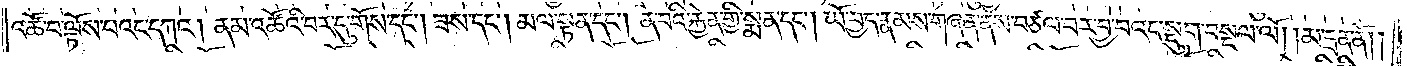འཚོ་བ་ལྟོས་པའང་དཀའ། ནམ་འཚོའི་བར་དུ་གོས་དང༌། ཟས་དང༌། མལ་སྟན་དང༌། ན་བའི་རྐྱེན་གྱི་སྨན་དང༌། ཡོ་བྱད་རྣམས་གཞན་ནས་བཙལ་བར་བྱ་བའང་སྡུག་བསྔལ་ལོ། །མ་དྲན་ནོ། །
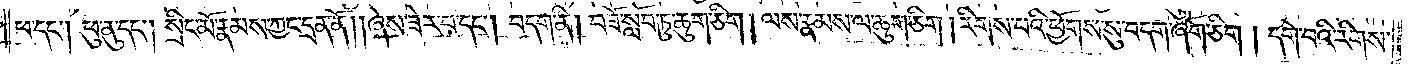ཕ་དང༌། ཕུ་ནུ་དང༌། སྲིང་མོ་རྣམས་ཀྱང་དྲན་ནོ། །ཞེས་ཟེར་བ་དང༌། བདག་ནི། བཟོ་སློབ་ཏུ་ཆུག་ཅིག །ལས་རྣམས་ལ་ཆུག་ཅིག །རིགས་པའི་ཕྱོགས་སུ་བདག་ཞོག་ཅིག། དགེ་བའི་རིགས་
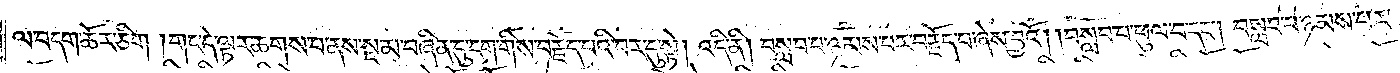ལ་བདག་ཆོར་ཅིག །གང་དེ་ལྟར་ཆགས་པ་ནས་སྔ་མ་བཞིན་དུ་ངག་གིས་བརྗོད་པའི་བར་དུ་སྟེ། འདི་ནི། བསླབ་པ་ཉམས་པར་བརྗོད་པ་ཞེས་བྱའོ། །བསླབ་པ་ཕུལ་བ་དང༌། བསླབ་པ་ཉམས་པར་
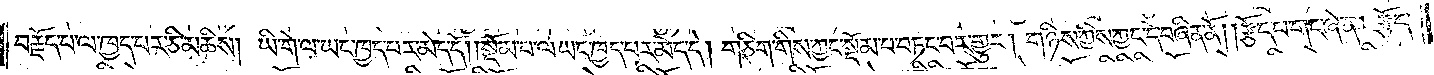བརྗོད་པ་ལ་ཁྱད་པར་ཅི་མཆིས། ཡི་གེ་ལ་ཡང་ཁྱད་པར་མེད་དོ། །སྡོམ་པ་ལ་ཡང་ཁྱད་པར་མེད་དེ། གཅིག་གིས་ཀྱང་སྡོམ་པ་བཏང་བར་གྱུར། གཉིས་ཀྱིས་ཀྱང་དེ་བཞིན་ནོ། །རྩོད་པ་གང་ཞེ་ན། རྩོད་
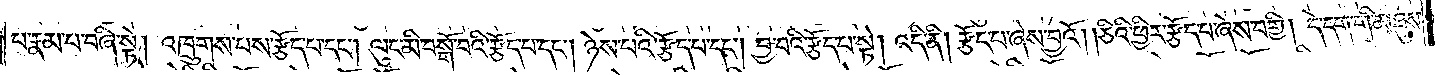པ་རྣམ་པ་བཞི་སྟེ། འཁྲུགས་པས་རྩོད་པ་དང༌། ལུང་མི་བསྒོ་བའི་རྩོད་པ་དང༌། ཉེས་པའི་རྩོད་པ་དང༌། བྱ་བའི་རྩོད་པ་སྟེ། འདི་ནི། རྩོད་པ་ཞེས་བྱའོ། །ཅིའི་ཕྱིར་རྩོད་པ་ཞེས་བགྱི། དེ་དག་གི་མཐུས་
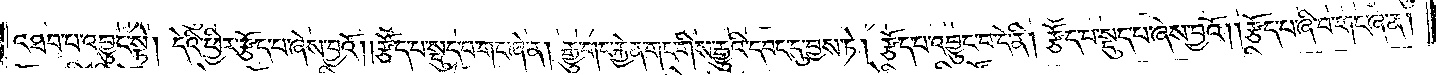འཐབ་པ་འབྱུང་སྟེ། དེའི་ཕྱིར་རྩོད་པ་ཞེས་བྱའོ། །རྩོད་པ་སྡུད་པ་གང་ཞེ་ན། རྒྱུ་གང་རྐྱེན་གང་གིས་རྒྱུའི་དབང་དུ་བྱས་ཏེ། རྩོད་པ་འབྱུང་བ་དེ་ནི། རྩོད་པ་སྡུད་པ་ཞེས་བྱའོ། །རྩོད་པ་ཞི་བ་གང་ཞེ་ན།
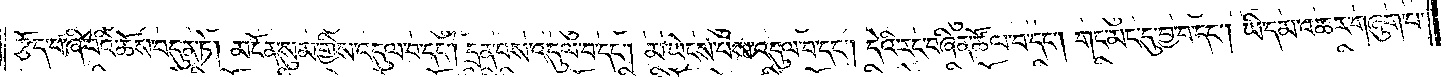རྩོད་པ་ཞི་བའི་ཆོས་བདུན་ཏེ། མངོན་སུམ་གྱིས་འདུལ་བ་དང༌། དྲན་པས་འདུལ་བ་དང༌། མ་ཡེངས་པས་འདུལ་བ་དང༌། དེའི་རང་བཞིན་ཚོལ་བ་དང༌། གང་མང་དུ་བྱ་བ་དང༌། ཡི་དམ་འཆར་གཞུག་པ་
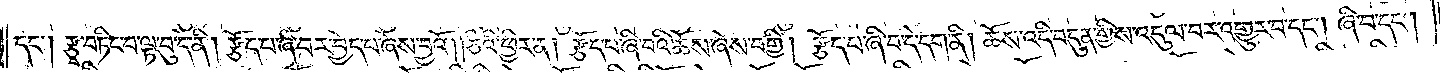དང༌། རྩྭ་བཏིང་བ་ལྟ་བུ་དེ་ནི། རྩོད་པ་ཞི་བར་བྱེད་པ་ཞེས་བྱའོ། །ཅིའི་ཕྱིར་ན། རྩོད་པ་ཞི་བའི་ཆོས་ཞེས་བགྱི། རྩོད་པ་ཞི་བ་དེ་དག་ནི། ཆོས་འདི་བདུན་གྱིས་འདུལ་བར་འགྱུར་བ་དང༌། ཞི་བ་དང༌།
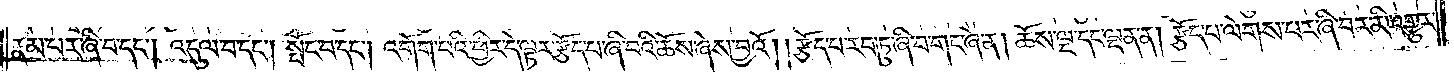རྣམ་པར་ཞི་བ་དང༌། འདུལ་བ་དང༌། སྤོང་བ་དང༌། འགོག་པའི་ཕྱིར་དེ་ལྟར་རྩོད་པ་ཞི་བའི་ཆོས་ཞེས་བྱའོ། །རྩོད་པ་རབ་ཏུ་ཞི་བ་གང་ཞེ་ན། ཆོས་ལྔ་དང་ལྡན་ན། རྩོད་པ་ལེགས་པར་ཞི་བར་མི་འགྱུར་
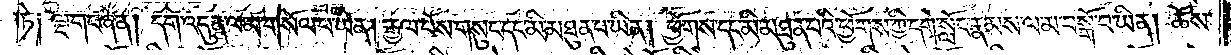ཏེ༑ ལྔ་གང་ཞེ་ན། དགེ་འདུན་ལ་མ་གསོལ་པ་ཡིན། རྒྱལ་པོས་གསུང་དང་མི་མཐུན་པ་ཡིན། ཕྱོགས་དང་མི་མཐུན་པའི་ཕྱོགས་ཀྱི་དགེ་སློང་རྣམས་ལ་མ་བསྒོ་བ་ཡིན། ཆོས་
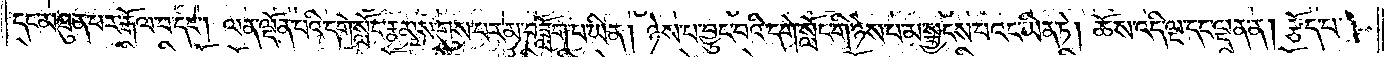དང་མཐུན་པར་རྒོལ་བ་དང༌། ལན་ལྡོན་པའི་དགེ་སློང་རྣམས་གུས་པར་མ་བཟློག་པ་ཡིན། ཉེས་པ་བྱུང་བའི་དགེ་སློང་གི་ཉེས་པ་མ་སྦྱངས་པའང་ཡིན་ཏེ། ཆོས་འདི་ལྔ་དང་ལྡན་ན། རྩོད་པ་
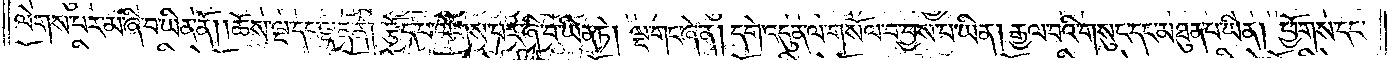ལེགས་པར་མ་ཞི་བ་ཡིན་ནོ། །ཆོས་ལྔ་དང་ལྡན་ན། རྩོད་པ་ལེགས་པར་ཞི་བ་ཡིན་ཏེ། ལྔ་གང་ཞེ་ན། དགེ་འདུན་ལ་གསོལ་བ་བྱས་པ་ཡིན། རྒྱལ་བའི་གསུང་དང་མཐུན་པ་ཡིན། ཕྱོགས་དང་
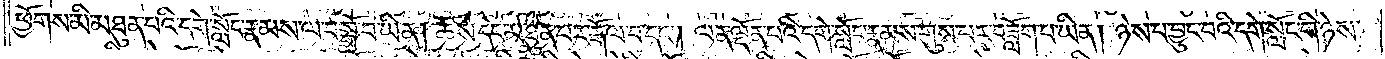ཕྱོགས་མི་མཐུན་པའི་དགེ་སློང་རྣམས་ལ་བསྒོ་བ་ཡིན། ཆོས་དང་མཐུན་པར་རྒོལ་བ་དང༌། ལན་ལྡོན་པའི་དགེ་སློང་རྣམས་གུས་པར་བཟློག་པ་ཡིན། ཉེས་པ་བྱུང་བའི་དགེ་སློང་གི་ཉེས་
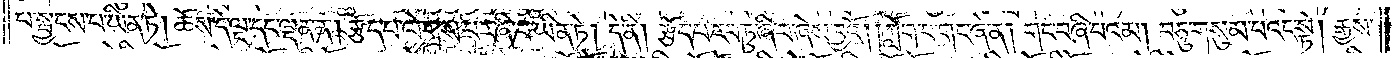པ་སྦྱངས་པ་ཡིན་ཏེ། ཆོས་དེ་ལྔ་དང་ལྡན་ན། རྩོད་པ་ལེགས་པར་ཞི་བ་ཡིན་ཏེ། དེ་ནི། རྩོད་པ་རབ་ཏུ་ཞི་བ་ཞེས་བྱའོ། །ཀློག་པ་གང་ཞེ་ན། གང་བཞི་པའམ། བཅུ་གསུམ་པའང་སྟེ། རྒྱས་
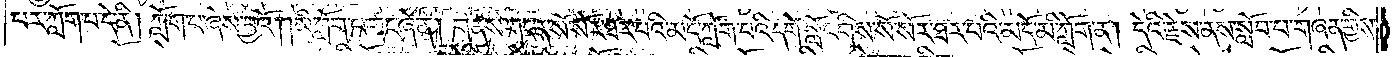པར་ཀློག་པ་དེ་ནི། ཀློག་པ་ཞེས་བྱའོ། །མི་ཀློག་པ་གང་ཞེ་ན། གནས་གང་ན་སོ་སོར་ཐར་པའི་མདོ་ཀློག་པའི་དགེ་སློང་གིས་སོ་སོར་ཐར་པའི་མདོ་མི་ཀློག་ན། དེའི་རྗེས་ནས་སློབ་པ་གཞན་གྱིས་
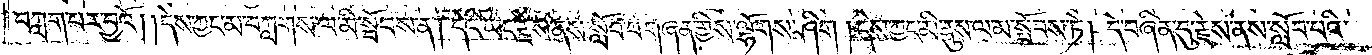བཀླག་པར་བྱའོ། །དེས་ཀྱང་མ་བཀླགས་ལ་མི་སྦོབས་ན། དེའི་ཡང་རྗེས་ནས་སློབ་པ་གཞན་གྱིས་ལྷོགས་ཤིག །དེས་ཀྱང་མི་ནུས་ལ་མ་སྤོབས་ཏེ། དེ་བཞིན་དུ་རྗེས་ནས་སློབ་པའི་
